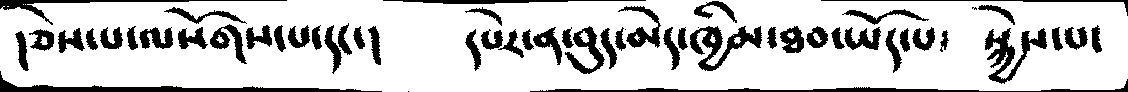།ཅེས་པ་ལསོགས་པ་དང་།    དཔེར་ན་བུད་མེད་ཁྱིམ་ཐབ་ཡོད་པ་   སྐྱེས་པ་
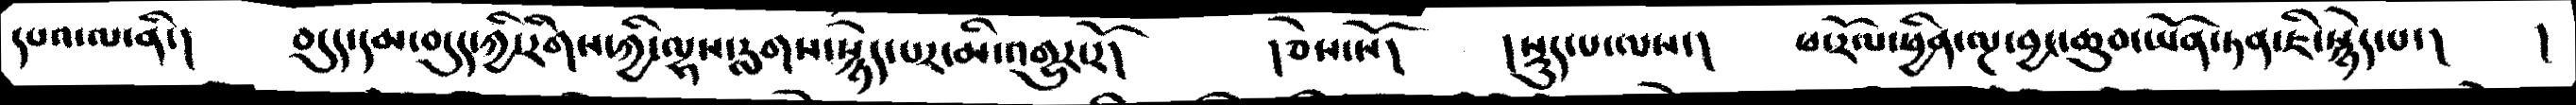དཔའ་ལ་ནི་།   བདུད་དམ་བདུད་ཀྱི་རིགས་ལྷས་རླགས་སྙེད་པར་མི་འགྱུར་རོ།    །ཅེས་སོ།  །སྡུད་པ་ལས་།   ཕ་རོལ་ཕྱིན་ལྔ་བྱང་ཆུབ་ཡོན་ཏན་ཇི་སྙེད་པ་།   །
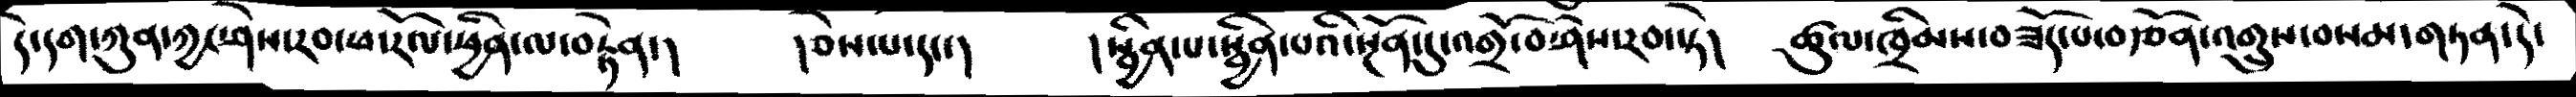དེ་དག་ཀུན་ཀྱང་ཤེས་རབ་ཕ་རོལ་ཕྱིན་ལ་བརྟེན་།    །ཅེས་པ་དང་།   །སྦྱིན་པ་སྦྱིན་པའི་སྔོན་དུ་འགྲོ་བ་ཤེས་རབ་སྟེ།  ཚུལ་ཁྲིམས་བཟོད་པ་བརྩོན་འགྲུས་བསམ་གཏན་དེ་
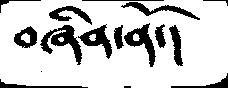བཞིན་ནོ་།
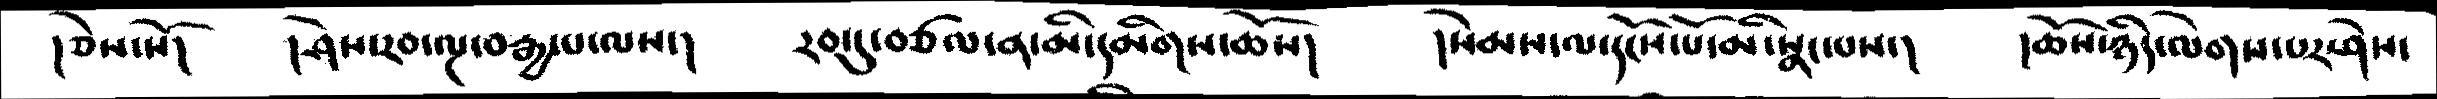།ཅེས་སོ།   །ཤེས་རབ་ལྔ་བརྒྱ་པ་ལས་།  རབ་དུ་བཙལ་ན་མི་དམིགས་ཆོས།   །སེམས་ལ་དངོས་པོ་མི་སྣང་པས་།  །ཆོས་ཉིད་ལེགས་པར་ཤེས་
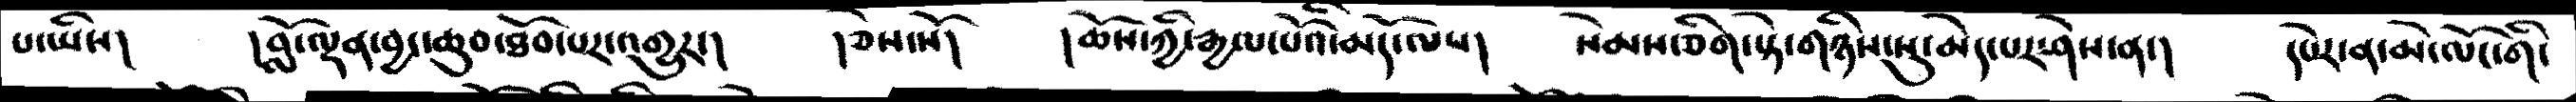པ་ཡིས།   །བློ་ལྡན་བྱང་ཆུབ་ཐོབ་པར་འགྱུར་།   །ཅེས་སོ།   །ཆོས་ཀྱི་རྒྱལ་པོའི་མདོ་ལས།  སེམས་ཅིག་སྟེ་གཉིས་སུ་མེད་པར་ཤེས་ན་།  དཔེར་ན་མེ་ལོང་གི་
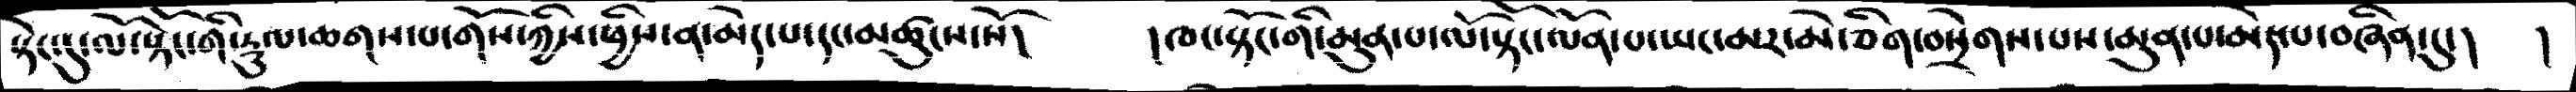སྟེང་དུ་ལོ་སྟོང་གི་རྡུལ་ཆགས་པ་གོས་ཀྱིས་ཕྱིས་ན་མེད་པ་དང་མཚུངས་སོ།   །ཁང་སྟོང་གི་མུན་པ་ལོ་སྟོང་ལོན་པ་ཡང་མར་མེ་ཅིག་བསྲེགས་པས་མུན་པ་མེད་པ་བཞིན་དུ་།  །
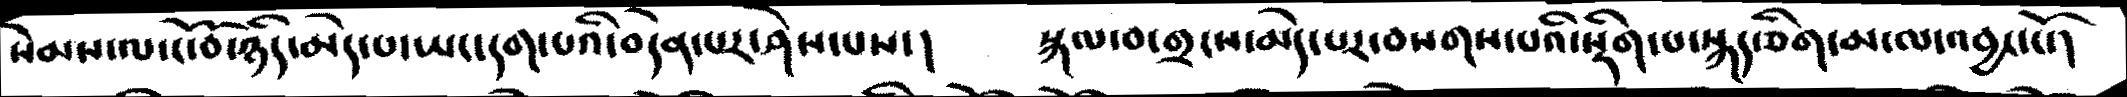སེམས་ལ་ངོ་བོ་ཉིད་མེད་པ་ཡང་དག་པའི་བདེན་པར་ཤེས་པས་།   སྐལ་བ་གྲངས་མེད་པར་བསགས་པའི་སྡིག་པ་སྐད་ཅིག་མ་ལ་འབྱང་ངོ་།
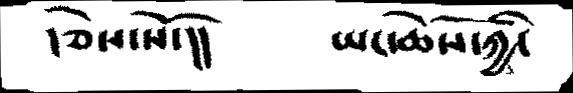།ཅེས་སོ་།།    ཡང་ཆོས་ཀྱི་
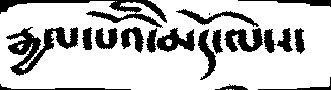རྒྱལ་པོའི་མདོ་ལས་
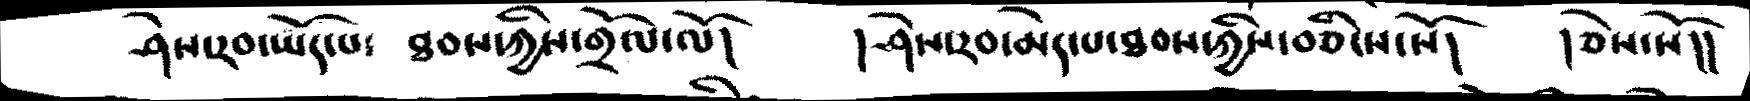ཤེས་རབ་ཡོད་པ་   ཐབས་ཀྱིས་གྲོལ་ལོ།   །ཤེས་རབ་མེད་པ་ཐབས་ཀྱིས་བཅིངས་སོ།   །ཅེས་སོ།།
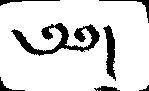༄༅།
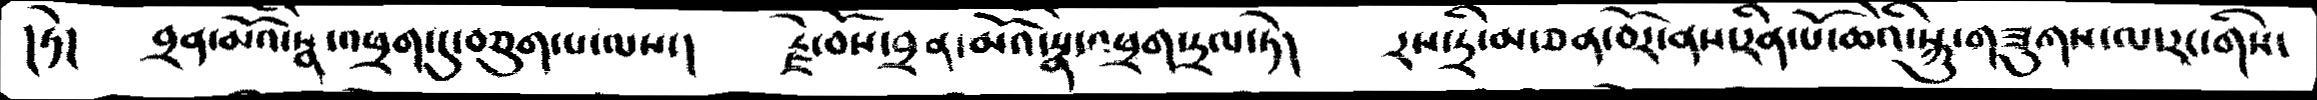།ཏེ།   བྲན་མོའི་སྣ་འཕྲག་དུ་བཅུག་པ་ལས་།  རྗེ་བོས་བྲན་མོའ་སྣ་འཕྲག་དྲལ་ཏེ།   རས་དྲི་མ་ཅན་བོར་ནས་རིན་པོ་ཆེའི་སྐུ་གཟུགས་ལ་རང་གིས་
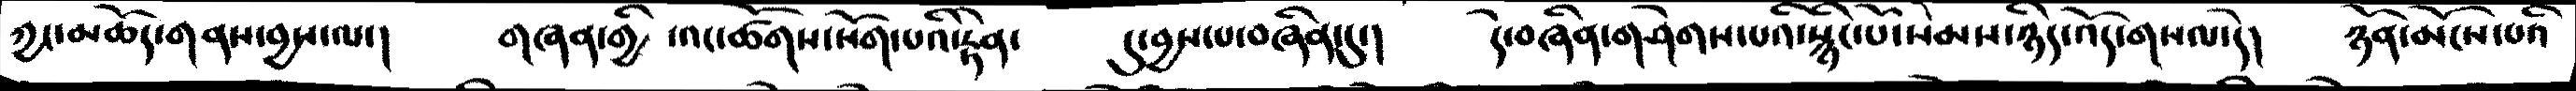ཀྱང་མཆོད་གནས་བྱས་ལ་།   གཞཉ་གྱི་ འང་ཚོགས་སོག་པའི་རྟེན་   དུ་བྱས་པ་བཞཱིན་དུ་།   དེ་བཞིན་གཤེགས་པའི་སྙིང་པོ་སེམས་ཉིད་འོད་གསལ་དེ།   ཉོན་མོངས་པའི
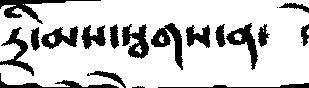དྲི་མ་སྦགས་ན་
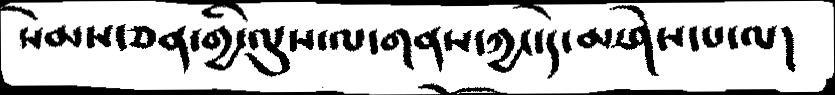སེམས་ཅན་གྱི་ལུས་ལ་གནས་ཀྱང་དེ་མ་ཤེས་པ་ལ།
